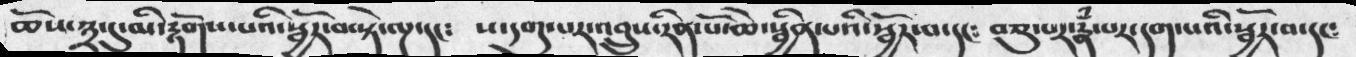ཆོས་༣་དུ་མི་རྟོགས་པའི་སྦྱོར་བ་སྟེ་ལྔ་དང༴  ས་དགུ་པར་འབྲུས་རིན་པོ་ཆེ་སྦྱིན་པའི་སྦྱོར་བ་དང༴ བཅུ་པར་རྣཾ་པར་དག་པའི་སྦྱོར་བ་དང༴
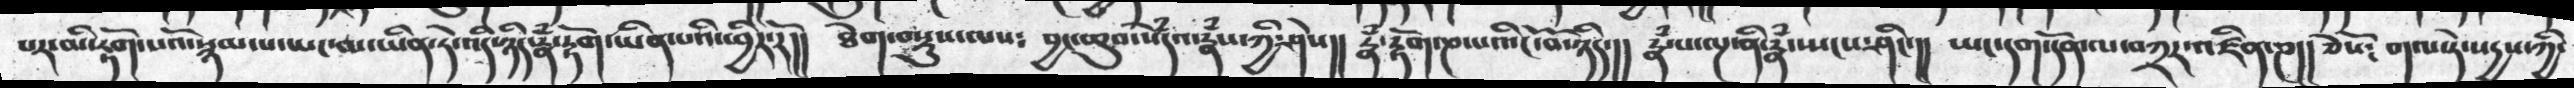པར་མི་རྟོག་པའོ་སྙམ་པ་ཡང་མ་ཡིན་ཏེ་འདི་ཉིད་རྣཾ་རྟོག་ཡིན་པའི་ཕྱིར་རོ།།  ཐེག་བསྡུས་ལས༴ བྱང་ཆུབ་སེཾདའ་རྣཾས་ཀྱི་ཤེས།། རྣཾ་རྟོག་ཎ་པའི་ངོ་བོ་ཉིད་།། རྣཾ་པ་ལྔ་ནི་རྣཾ་སྤངས་ཤིང་།།  ཡང་དག་དོན་ལ་བཀྲར་འཛིན་ཎ།།ཅེསོ༴ གལ་ཏེ་སདྱས་ཀྱི་
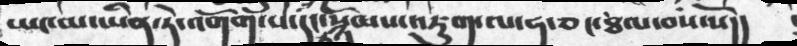ཡང་མ་ཡིན་ཏེ་འགོག་པ་དང་སྙོམས་འཇུག་ལ་ཧ་ཅང་ཐལ་བས་སོ།།
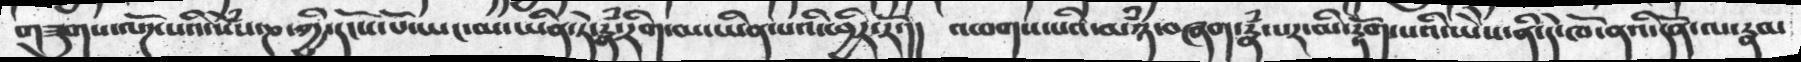གཟུགས་ལོཌ་པའི་སེཾས་ཎ་ཀྱི་དངོས་པོ་ཡང་མ་ཡིན་ཏེ་རྣཾ་རིག་མ་ཡིན་པའི་ཕྱིར་རོ་།།  འཕགས་པའི་མཉཾ་བཞག་རྣཾ་པར་མི་རྟོག་པའི་ཡཻས་ནི་དེ་ཁོ་ནའི་དོན་ལ་རྣམ
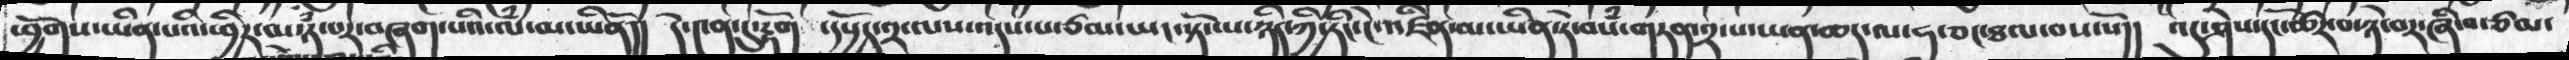ཕྱོགས་ཡིན་པའི་ཕྱིར་མཉཾ་པར་བཞག་པའི་ལཾ་མ་ཡིནོ།།  དེ་༤ན་དུ་རྟོག ་དཔྱོད་༢་ལས་འདས་པ་ཙམ་ཡང་སྟོང་པ་ཉིད་ཀྱི་ཏིང་ངེ་འཛིན་མ་ཡིན་ཏེ་བསཾ་གཏན་༢་པ་ཡན་ཆད་ལ་ཧ་ཅང་ཐལ་བས་སོ།།  འདུ་ཤེས་དང་ཚོར་བ་ཉེ་བར་ཞི་བ་ཙམ་
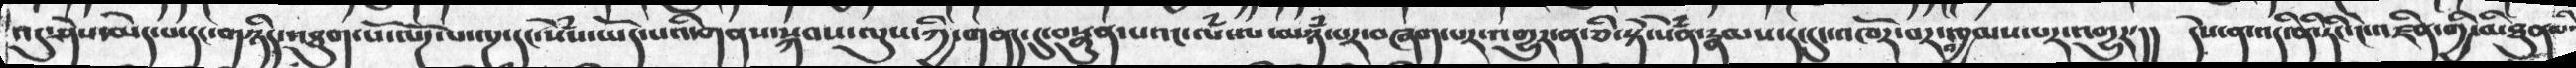འདུ་ཤེས་མེད་པ་དང་གཉིད་འཐུག་པོ་ལོཌ་པ་ལྔ་དང་སེཾས་ཡོད་པའི་གནས་སྐབས་ལུས་ཀྱི་གནད་དུ་བསྣུན་པའང་ལཾ་ལ་མཉཾ་པར་བཞག་པར་འགྱུར་ན་ཅི་སྟེ་སེཾན་རྣམས་ད་དུང་འཁོར་བར་འཁྱམས་པར་འགྱུར་།།   དེས་ན་འདི་ནི་ཏིང་ངེ་འཛིན་གྱི་མིཐུན་པ་
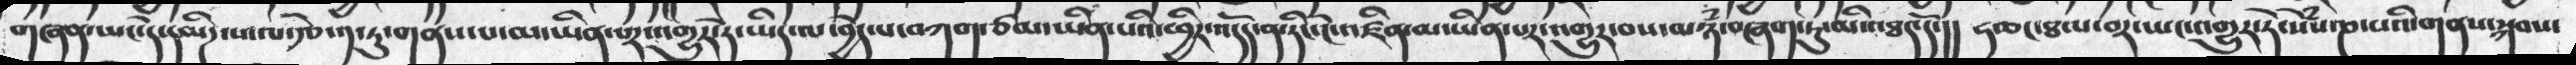གཞན་ཡང་དེ་དམིཌ་པ་ལ་རྩེ་༡་ཏུ་གནས་པ་མ་ཡིན་པར་འགྱུར་ཏེ་ཡིད་ལ་བྱེད་པ་བཀག་ཙམ་ཡིན་པའི་ཕྱིར་འདོད་ན་ཏིང་ངེ་འཛིན་མ་ཡིན་པར་འགྱུར་བས་མཉཾ་བཞག་ཏུ་མི་འཐད་དོ་།།  ཧ་ཅང་ཐལ་བར་ཡང་འགྱུར་ཏེ་སེཾས་ཎ་པའི་གནས་སྐབས་
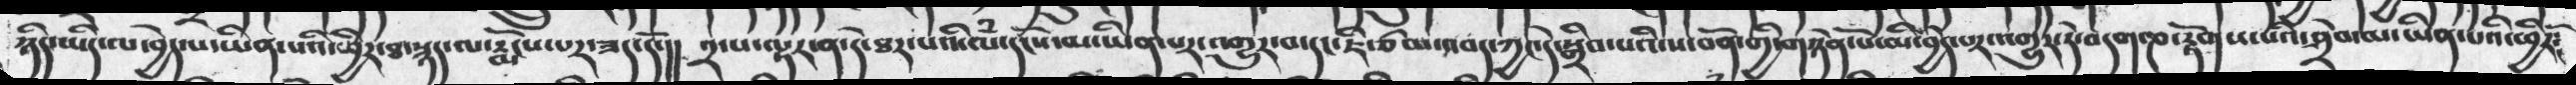ཉིད་ཡིད་ལ་བྱེད་པ་ཡིན་པའི་ཕྱིར་ཐ་སྙད་ལ་རྨོངས་པར་ཟད་དོ་།།  ༢་པ་ལྟར་ན་དེ་ཐར་པའི་དངོས་མ་ཡིན་པར་འགྱུར་བ་དང་ཇི་ཙམ་འབད་ཀྱང་དེ་སྒྲིབ་པའི་ས་བོན་གྱི་གཉེན་པོ་མི་བྱེད་པར་འགྱུར་དེ་བདག་ཎ་རྟོགས་པའི་ཤྲེབ་མ་ཡིན་པའི་ཕྱིརོ༴
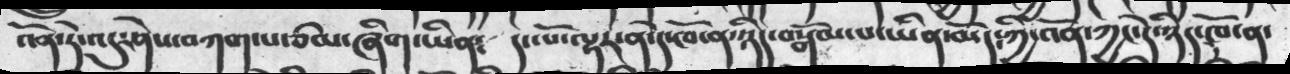འོན་དེ་འདུ་ཤེས་བཀག་པ་ཙམ་ཞིག་ཡིན༴   དང་པོ་ལྟར་ན་དེ་ཁོ་ན་ཉིད་བསྒོམ་པ་ཡིན་མོད་ཀྱི་འོན་ཀྱང་དེ་ཉིད་ཁོ་ན་
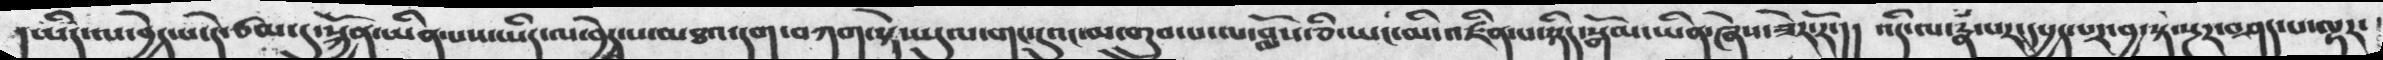།ཡིད་ལ་བྱེད་པ་དེ་ཙམ་དུ་སྐྱོན་ཡིན་པས་ཡིད་ལ་བྱེད་པ་མཐའ་དག་བཀག་སྟེ་ཡུལ་གང་དུའང་མ་གྲུབ་པ་ལ་བློས་ཅི་ཡང་མི་འཛིན་པ་ཉིད་སྒོམ་ཡིན་ཞེས་ཟེར་རོ་།། འདི་ལ་རྣཾ་པར་དཔྱད་པར་བྱ་སྟེ་སྔར་བཤད་པ་ལྟར་
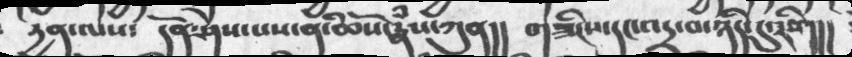དྱན་ལས༴  དོན་ཤེས་པས་ནི་ཆོས་རྣཾས་ཀུན།།  གཟིངས་དང་འདྲ་བ་ཉིད་དུ་རིག།།
